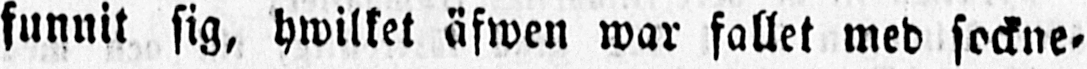funnit sig, hwilket äfwen war fallet med sockne-
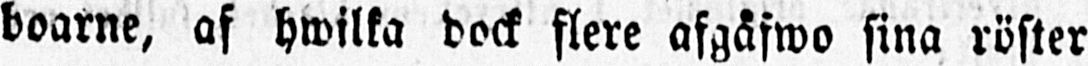boarne, af hwilka dock flere afgåfwo sina röster
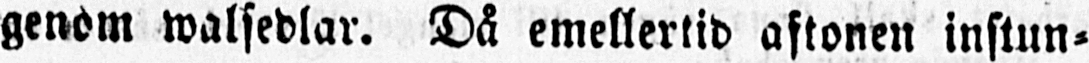genom walsedlar. Då emellertid aftonen instun-
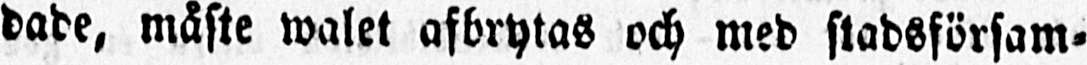dade, måste walet afbrytas och med stadsförsam-
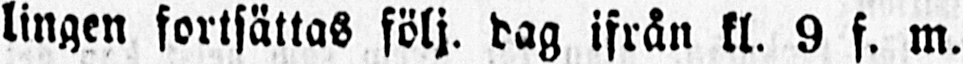lingen fortsättas följ. dag ifrån kl. 9 f. m.
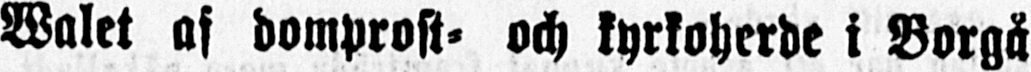Walet af domprost- och kyrkoherde i Borgå
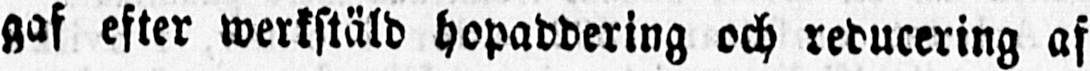gaf efter werkstäld hopaddering och reducering af
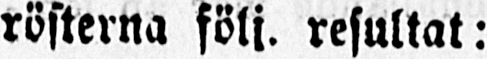rösterna följ. resultat:
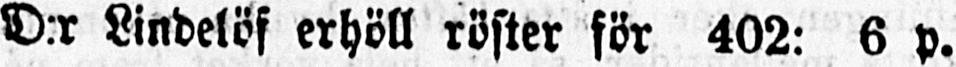D:r Lindelöf erhöll röster för 402: 6 p.
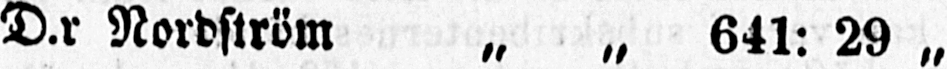D.r Nordström „ „ 641: 29 „
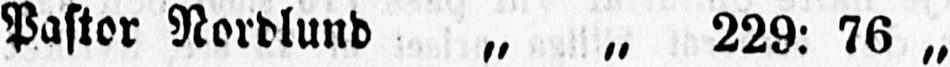Pastor Nordlund „ „ 229: 76 „
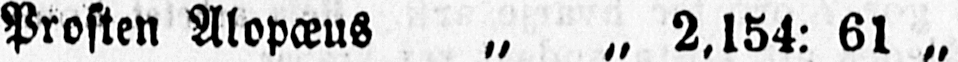Prosten Alopæus „ „ 2,l54: 61 „
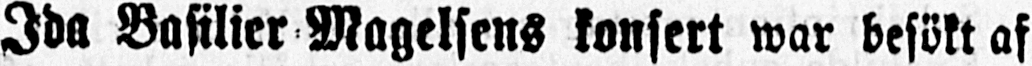Ida Basilier Magelsens konsert war besökt af
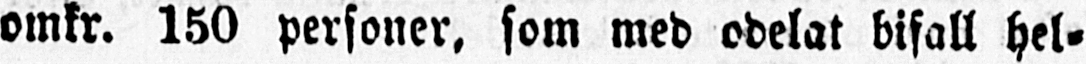omkr. 150 personer, som med odelat bifall hel-
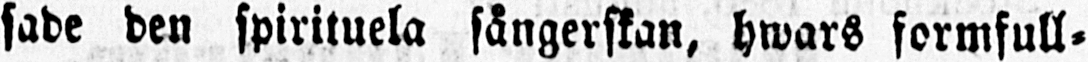sade den spirituela sångerskan, hwars formfull-
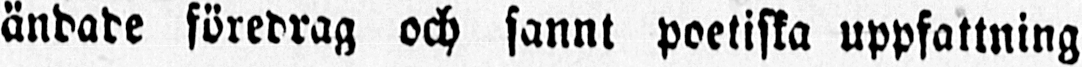ändade föredrag och sannt poetiska uppfattning
